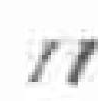11
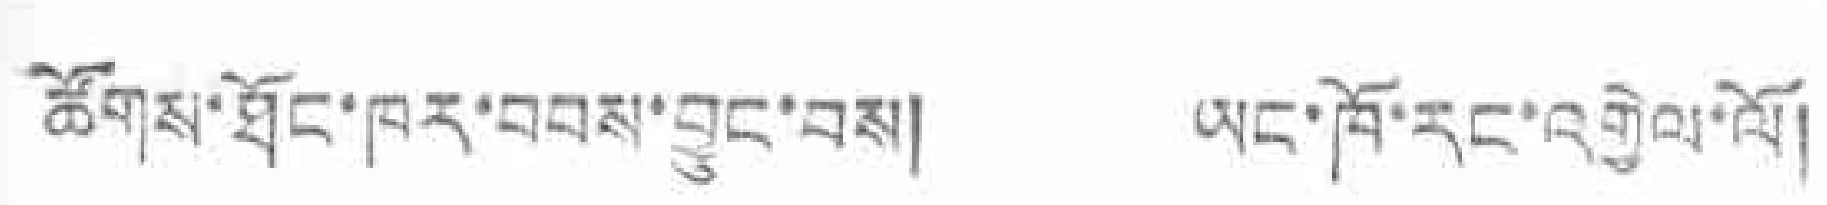ཚོགས་ཐོང་ཁར་བབས་བྱུང་བས། ཡང་ཁོ་རང་འགྱེལ་ལོ།
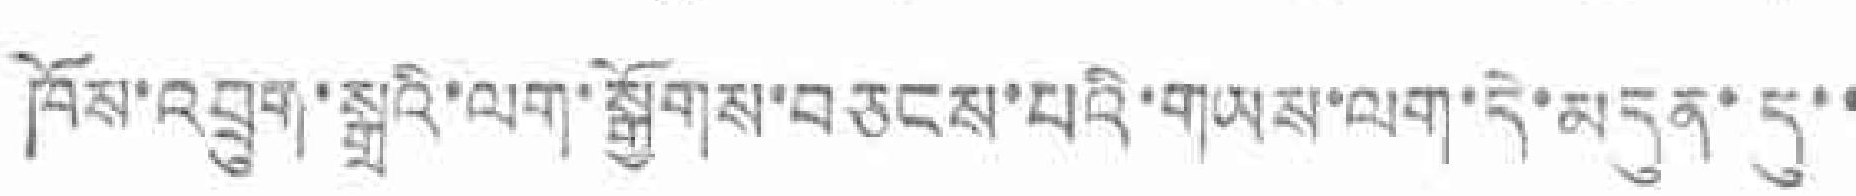ཁོས་འབྲུག་སྒྲའི་ལག་སྒྱོགས་བཅངས་པའི་གཡས་ལག་དེ་མདུན་དུ་་
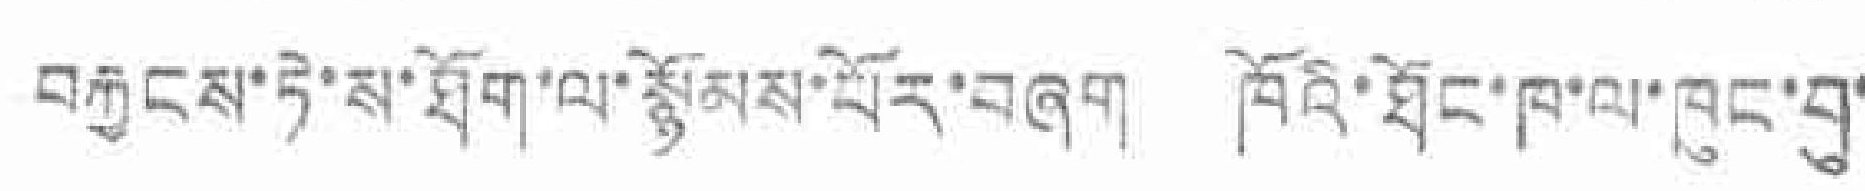བརྐྱངས་ཏེ་ས་ཐོག་ལ་སྙོམས་པོར་བཞག ཁོའི་ཐོང་ཁ་ལ་ཁུང་བུ་
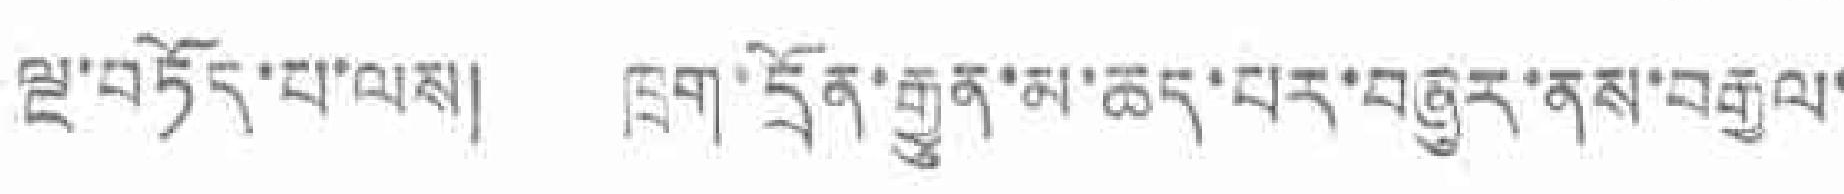ལྔ་བཏོད་པ་ལས། ཁྲག་དོན་རྒྱུན་མ་ཆད་པར་བཞུར་ནས་བརྒྱལ་
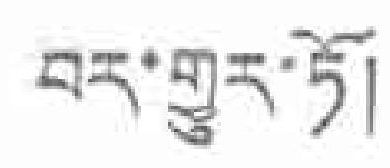བར་གྱུར་ཏོ།
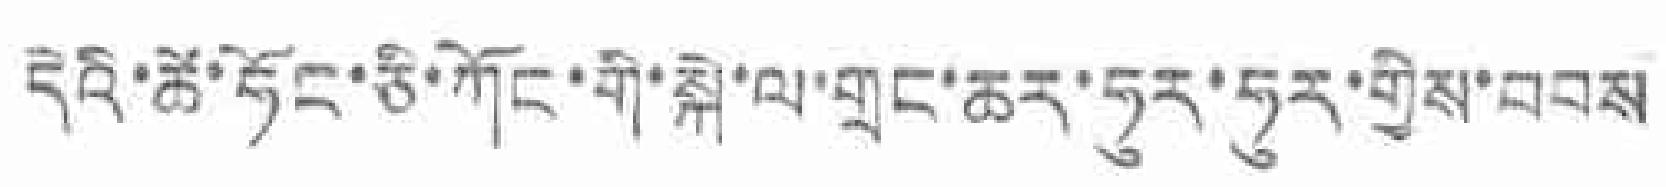དེའི་ཚེ་ཧོང་ཅི་ཀོང་གི་སྐེ་ལ་གྲང་ཆར་ཧུར་ཧུར་གྱེས་བབས
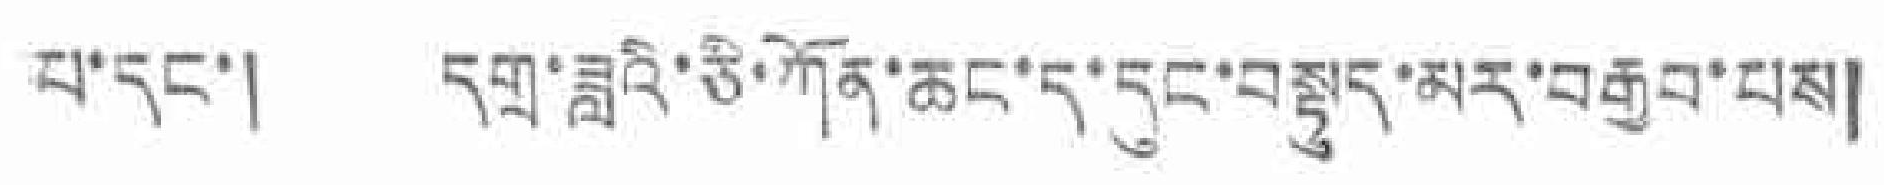པ་དང་། དགྲ་ཟླའི་ཅི་ཀོན་ཆང་ད་དུང་བསྟུད་མར་བརྒྱབ་པས།
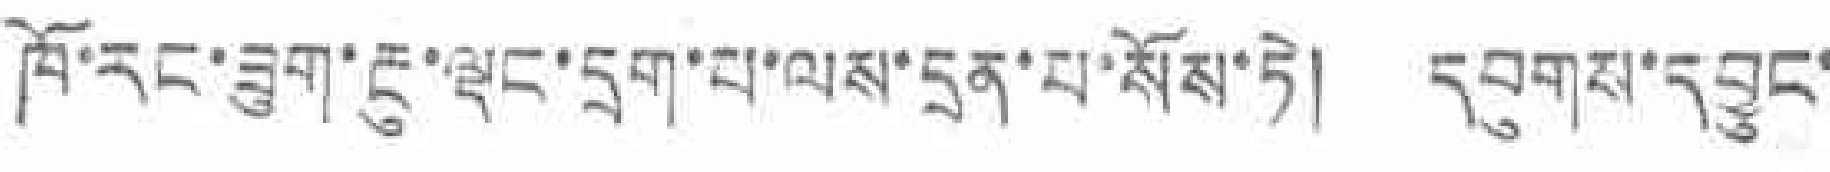ཁོ་རང་ཟུག་རྔུ་ལྡང་དྲག་པ་ལས་དྲན་པ་སོས་ཏེ། དབུགས་དབྱུང་
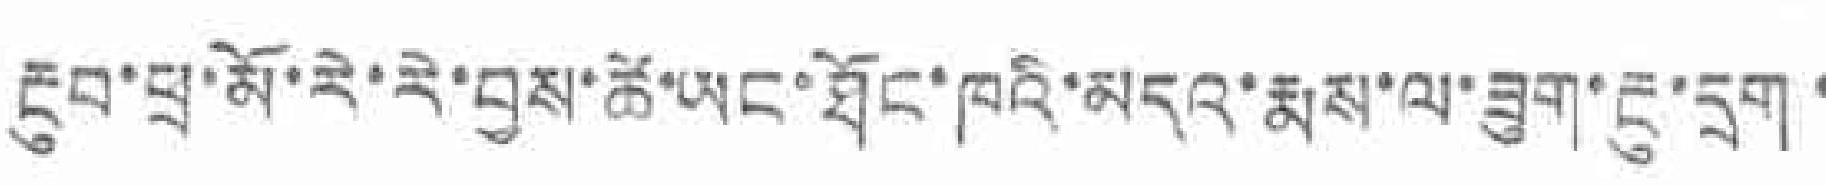རྔུབ་ཕྲ་མོ་རེ་རེ་བྱས་ཚེ་ཡང་ཐོང་ཁའི་མདའ་རྨས་ལ་ཟུག་རྔུ་དྲག་
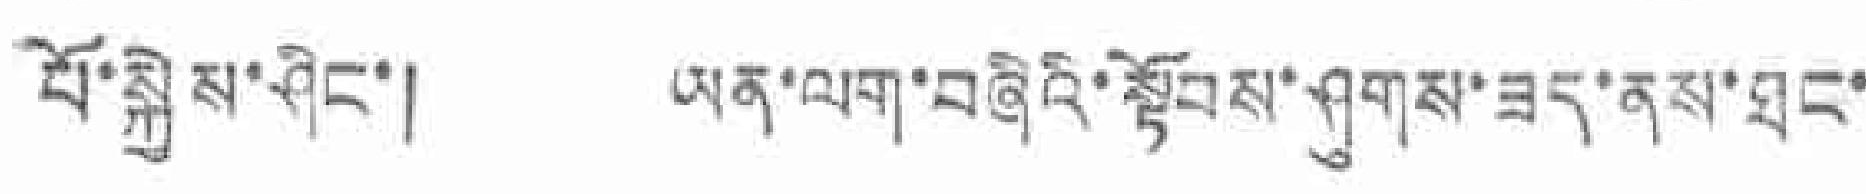པོ་སྐྱེས་ཤིང་། ཡན་ལག་བཞིའ་སྟོབས་ཤུགས་ཟད་ནས་ཐང་
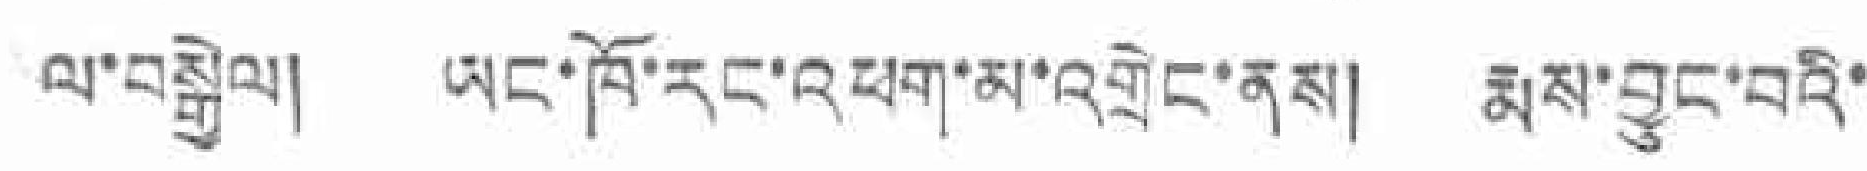ལ་བསྐྱེལ། ཡང་ཁོ་རང་འཕག་མ་འགྲེང་ནས། རྨས་བྱུང་བའི་
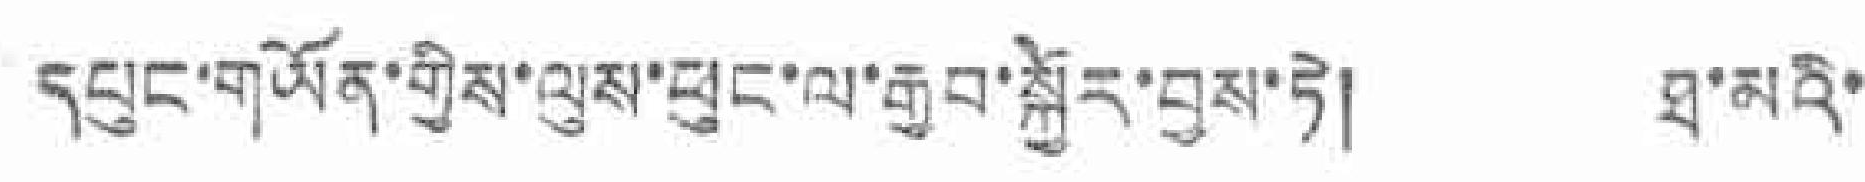དཔུང་གཡོན་གྱིས་ལུས་ཕུང་ལ་རྒྱབ་སྐྱོར་བྱས་ཏེ། ཐ་མའི་
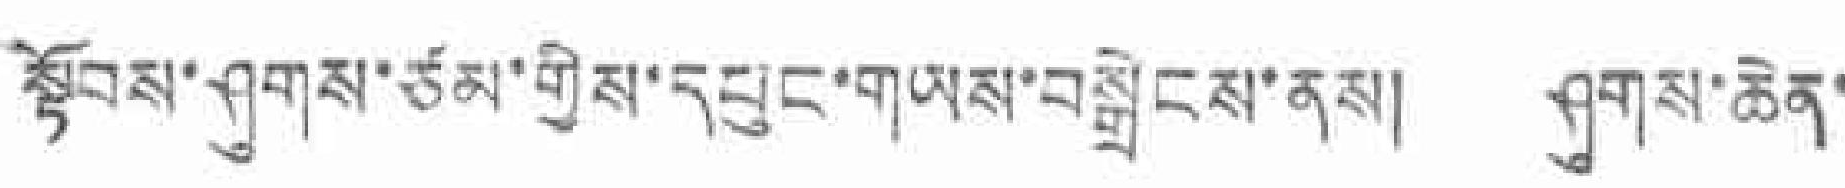སྟོབས་ཤུགས་ཙམ་གྱིས་དཔུང་གཡས་བསྒྲེངས་ནས། ཤུགས་ཆེན་
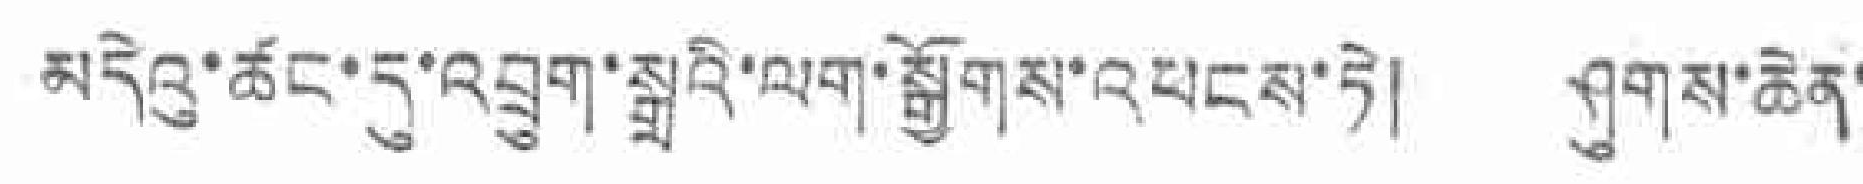མདེའུ་ཚང་དུ་འབྲུག་སྒྲའི་ལག་སྒྱོགས་འཕངས་ཏེ། ཤུགས་ཆེན་
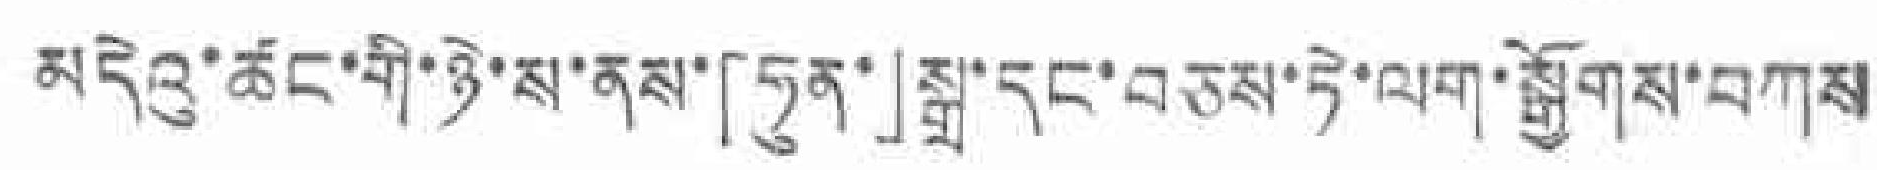མདེའུ་ཚང་གི་ཉེ་ས་ནས་「ཧུན་」སྒྲ་དང་བཅས་ཏེ་ལག་སྒྱོགས་བཀས
